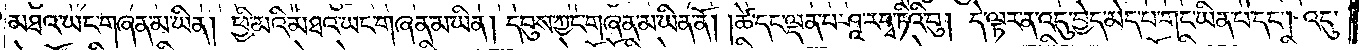མཐའ་ཡང་གཞན་མ་ཡིན། ཕྱི་མའི་མཐའ་ཡང་གཞན་མ་ཡིན། དབུས་ཀྱང་གཞན་མ་ཡིན་ནོ། །ཚེ་དང་ལྡན་པ་ཤཱ་རདྭ་ཏིའི་བུ། དེ་ལྟར་ན་འདུ་བྱེད་མེད་པ་གང་ཡིན་པ་དང༌། འདུ་
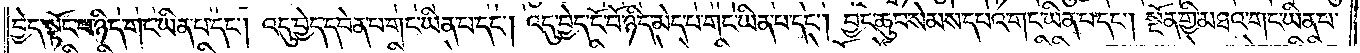བྱེད་སྟོང་པ་ཉིད་གང་ཡིན་པ་དང༌། འདུ་བྱེད་དབེན་པ་གང་ཡིན་པ་དང༌། འདུ་བྱེད་ངོ་བོ་ཉིད་མེད་པ་གང་ཡིན་པ་དང༌། བྱང་ཆུབ་སེམས་དཔའ་གང་ཡིན་པ་དང༌། སྔོན་གྱི་མཐའ་གང་ཡིན་པ་
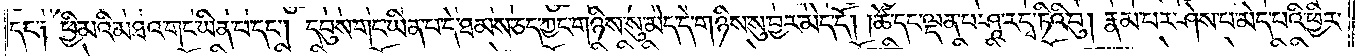དང་༑ ཕྱི་མའི་མཐའ་གང་ཡིན་པ་དང༌། དབུས་གང་ཡིན་པ་དེ་ཐམས་ཅད་ཀྱང་གཉིས་སུ་མེད་དེ་གཉིས་སུ་བྱར་མེད་དོ། །ཚེ་དང་ལྡན་པ་ཤཱ་རདྭ་ཏིའི་བུ། རྣམ་པར་ཤེས་པ་མེད་པའི་ཕྱིར་
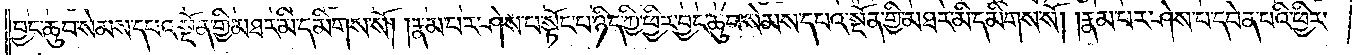བྱང་ཆུབ་སེམས་དཔའ་སྔོན་གྱི་མཐར་མི་དམིགས་སོ། །རྣམ་པར་ཤེས་པ་སྟོང་པ་ཉིད་ཀྱི་ཕྱིར་བྱང་ཆུབ་སེམས་དཔའ་སྔོན་གྱི་མཐར་མི་དམིགས་སོ། །རྣམ་པར་ཤེས་པ་དབེན་པའི་ཕྱིར་
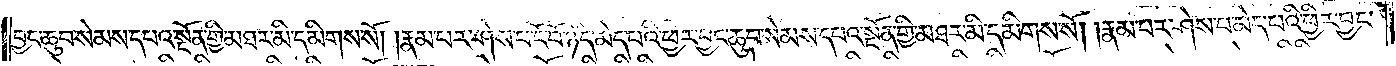བྱང་ཆུབ་སེམས་དཔའ་སྔོན་གྱི་མཐར་མི་དམིགས་སོ། །རྣམ་པར་ཤེས་པ་ངོ་བོ་ཉིད་མེད་པའི་ཕྱིར་བྱང་ཆུབ་སེམས་དཔའ་སྔོན་གྱི་མཐར་མི་དམིགས་སོ། །རྣམ་པར་ཤེས་པ་མེད་པའི་ཕྱིར་བྱང་
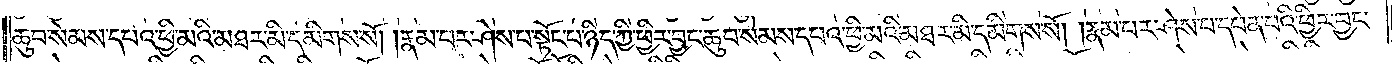ཆུབ་སེམས་དཔའ་ཕྱི་མའི་མཐར་མི་དམིགས་སོ། །རྣམ་པར་ཤེས་པ་སྟོང་པ་ཉིད་ཀྱི་ཕྱིར་བྱང་ཆུབ་སེམས་དཔའ་ཕྱི་མའི་མཐར་མི་དམིགས་སོ། །རྣམ་པར་ཤེས་པ་དབེན་པའི་ཕྱིར་བྱང་
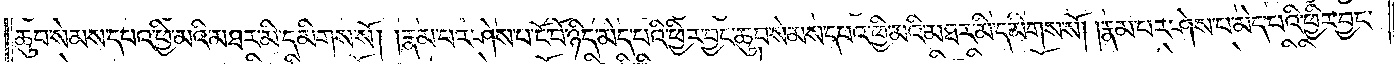ཆུབ་སེམས་དཔའ་ཕྱི་མའི་མཐར་མི་དམིགས་སོ། །རྣམ་པར་ཤེས་པ་ངོ་བོ་ཉིད་མེད་པའི་ཕྱིར་བྱང་ཆུབ་སེམས་དཔའ་ཕྱི་མའི་མཐར་མི་དམིགས་སོ། །རྣམ་པར་ཤེས་པ་མེད་པའི་ཕྱིར་བྱང་
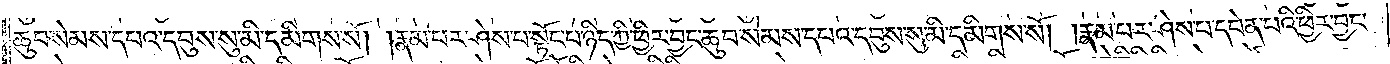ཆུབ་སེམས་དཔའ་དབུས་སུ་མི་དམིགས་སོ། །རྣམ་པར་ཤེས་པ་སྟོང་པ་ཉིད་ཀྱི་ཕྱིར་བྱང་ཆུབ་སེམས་དཔའ་དབུས་སུ་མི་དམིགས་སོ། །རྣམ་པར་ཤེས་པ་དབེན་པའི་ཕྱིར་བྱང་
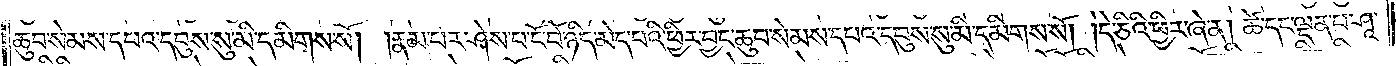ཆུབ་སེམས་དཔའ་དབུས་སུ་མི་དམིགས་སོ། །རྣམ་པར་ཤེས་པ་ངོ་བོ་ཉིད་མེད་པའི་ཕྱིར་བྱང་ཆུབ་སེམས་དཔའ་དབུས་སུ་མི་དམིགས་སོ། །དེ་ཅིའི་ཕྱིར་ཞེ་ན། ཚེ་དང་ལྡན་པ་ཤཱ་
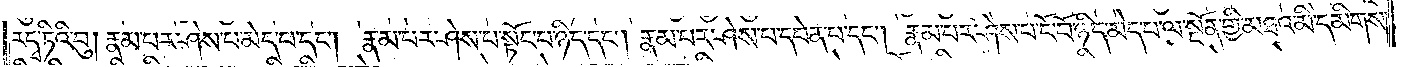རདྭ་ཏིའི་བུ། རྣམ་པར་ཤེས་པ་མེད་པ་དང༌། རྣམ་པར་ཤེས་པ་སྟོང་པ་ཉིད་དང༌། རྣམ་པར་ཤེས་པ་དབེན་པ་དང༌། རྣམ་པར་ཤེས་པ་ངོ་བོ་ཉིད་མེད་པ་ལ་སྔོན་གྱི་མཐའ་མི་དམིགས།
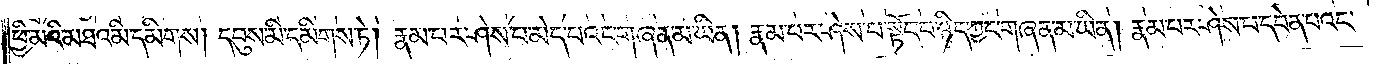ཕྱི་མའི་མཐའ་མི་དམིགས། དབུས་མི་དམིགས་ཏེ། རྣམ་པར་ཤེས་པ་མེད་པའང་གཞན་མ་ཡིན། རྣམ་པར་ཤེས་པ་སྟོང་པ་ཉིད་ཀྱང་གཞན་མ་ཡིན། རྣམ་པར་ཤེས་པ་དབེན་པའང་
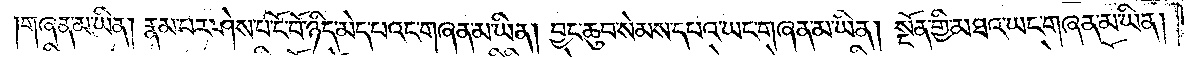གཞན་མ་ཡིན། རྣམ་པར་ཤེས་པ་ངོ་བོ་ཉིད་མེད་པའང་གཞན་མ་ཡིན། བྱང་ཆུབ་སེམས་དཔའ་ཡང་གཞན་མ་ཡིན། སྔོན་གྱི་མཐའ་ཡང་གཞན་མ་ཡིན།
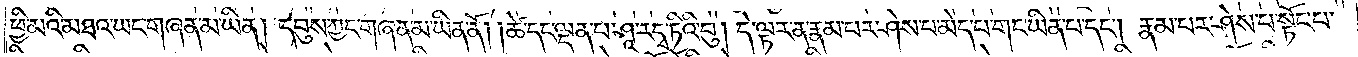ཕྱི་མའི་མཐའ་ཡང་གཞན་མ་ཡིན། དབུས་ཀྱང་གཞན་མ་ཡིན་ནོ། །ཚེ་དང་ལྡན་པ་ཤཱ་རདྭ་ཏིའི་བུ། དེ་ལྟར་ན་རྣམ་པར་ཤེས་པ་མེད་པ་གང་ཡིན་པ་དང༌། རྣམ་པར་ཤེས་པ་སྟོང་པ་
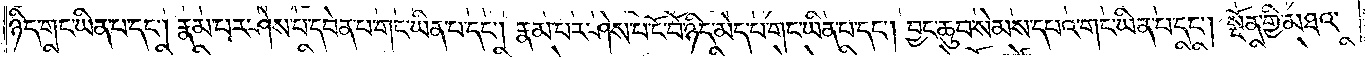ཉིད་གང་ཡིན་པ་དང༌། རྣམ་པར་ཤེས་པ་དབེན་པ་གང་ཡིན་པ་དང༌། རྣམ་པར་ཤེས་པ་ངོ་བོ་ཉིད་མེད་པ་གང་ཡིན་པ་དང༌། བྱང་ཆུབ་སེམས་དཔའ་གང་ཡིན་པ་དང༌། སྔོན་གྱི་མཐའ་
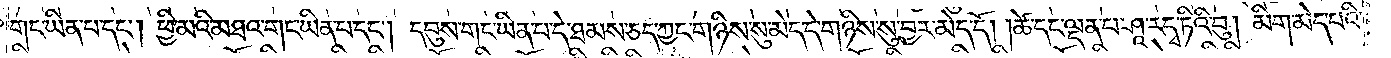གང་ཡིན་པ་དང༌། ཕྱི་མའི་མཐའ་གང་ཡིན་པ་དང༌། དབུས་གང་ཡིན་པ་དེ་ཐམས་ཅད་ཀྱང་གཉིས་སུ་མེད་དེ་གཉིས་སུ་བྱར་མེད་དོ། །ཚེ་དང་ལྡན་པ་ཤཱ་རདྭ་ཏིའི་བུ། མིག་མེད་པའི་
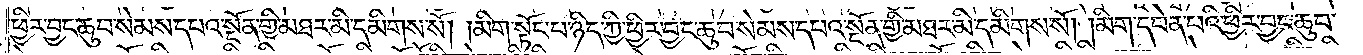ཕྱིར་བྱང་ཆུབ་སེམས་དཔའ་སྔོན་གྱི་མཐར་མི་དམིགས་སོ། །མིག་སྟོང་པ་ཉིད་ཀྱི་ཕྱིར་བྱང་ཆུབ་སེམས་དཔའ་སྔོན་གྱི་མཐར་མི་དམིགས་སོ། །མིག་དབེན་པའི་ཕྱིར་བྱང་ཆུབ་
